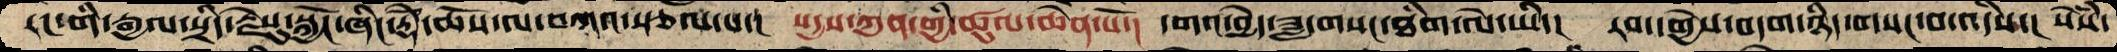རང་གི་རྒྱལ་སྲིད་རྗེསུ་སྐྱོང་ཞིང་རྡོེ་ཆོས་ལ་བཀའ་སྩལ་པ་།  སདྱས་ཀུན་གྱི་ཚུལ་ཆེན་པོ་།  དགའ་བྱེད་ཟླ་གསང་ཐིག་ལེ་ཡི་།  རབ་དགྱེས་བདག་ཉིད་གསང་བ་འདིས་།  སེཾས་
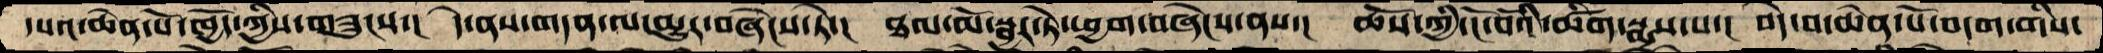དཔའ་ཆེན་པོ་ཁྱོད་ཀྱིས་གཟུངས་།  དེ་ནས་གདན་ལ་མྱུར་བཞེངས་ཏེ་།  ཐལ་མོ་སྦྱར་ཏེ་ཕྱག་བཞེངས་ནས་།  ཆོས་ཀྱི་ངོ་བོའི་ཚིག་སྨྲས་པ་།  བདེ་བ་ཆེན་པོ་བདག་གིས་
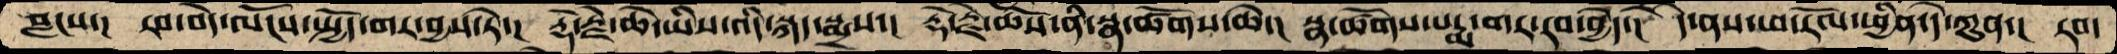བླངས་།   རབ་བདེ་ལོངས་སྤྱོད་གར་བྱས་ཏེ་།  རྡོ་རྗེ་ཆེ་ཡིས་འདི་སྐད་སྨྲས་།  རྡོ་རྗེ་ཆོས་ནི་སྣ་ཚོགས་ཆེ་།  སྣ་ཚོགས་པདྨ་གར་རབ་བྱེད་།  དེ་ནས་ཕ་རོལ་ཕྱིན་དེ་ཀུན་།  རབ་
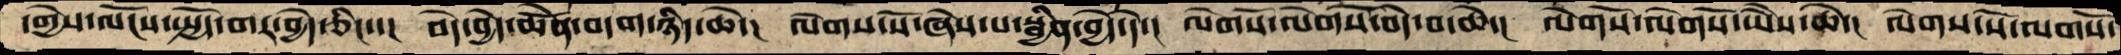དགྱེས་ལོངས་སྤྱོད་གར་བྱེད་ཅིང་་།  བདེ་བྱེད་ཆེནོ་བདག་ཉིད་ཆེ་།  ལེགས་སོ་ཞེས་པ་སྦྱིན་བྱེད་དེ་།  ལེགསོ་ལེགསོ་བདེ་བ་ཆེ་།  ལེགསོ་ལེགསོ་ཡཻས་ཆེ་།  ལེགས་སོ་ལགསོ་
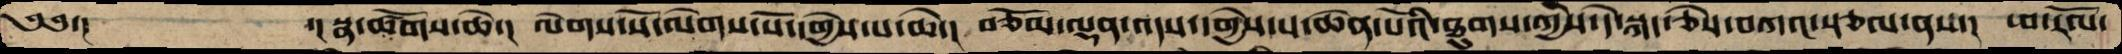༄༅་།         ་།སྣ་ཚོགས་ཆེ་།  ལེགས་སོ་ལེགས་སོ་དགྱེས་པ་ཆེ་།  བཅོམ་ལྡན་འདས་དགྱེས་པ་ཆེན་པོའི་ཐུགས་ཀྱི་དེ་སྐད་ཅེས་བཀའ་སྩལ་ནས་།  ཕ་རོལ་
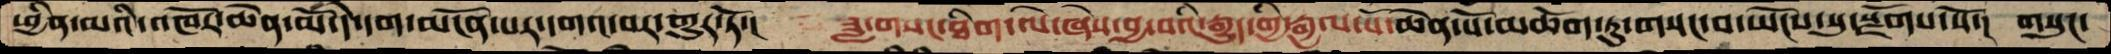ཕྱིན་མའི་འཁོར་ཆེན་མོ་དེ་དག་མངོན་པར་དགའ་བར་གྱུར་ཏོ་།   ཟླ་གསང་ཐིག་ལེ་ཞེས་བྱ་བའི་རྒྱུད་གྱི་རྒྱལ་པོ་ཆེན་པོ་མཆོག་ཏུ་གསང་བ་ཡོངས་སུ་སྫོགས་སོ་།  གསུང་
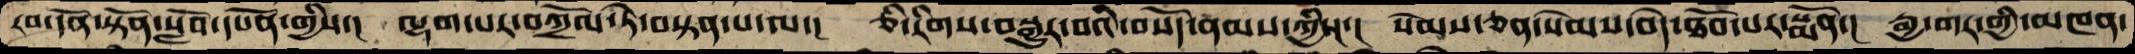རབ་དོན་སྟོན་སློབ་དཔོན་གྱིས་།  ལྷག་པར་བཀྲོལ་ཏེ་བསྟན་པ་ལ་།  ཅི་རིགས་བསྒྱུར་བའི་བསོད་ནམས་ཀྱིས་།  སེམས་ཅན་སེམས་བདེ་ཐོབ་པར་སྨོན་།  རྒྱ་གར་གྱི་མཁན་
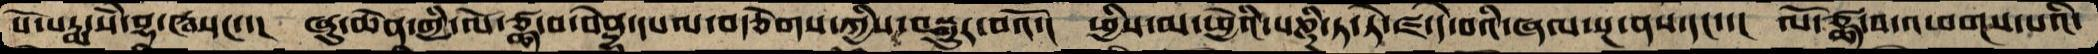པོ་པདྨ་སཾ་བྷ་ཝ་དང་་།  ཞུ་ཆེན་གྱི་ལོ་ཙྪ་བ་བེནྡྷ་དཔལ་བརྩེགས་ཀྱིས་བསྒྱུར་བའོ་།  ཕྱིས་མ་ཕྱེའི་པཎྜི་ཏ་ཏེ་ཛ་དེ་བའི་ཞལ་སྔ་ནས་དང་་།  ལོ་ཙྪ་བ་འཕགས་པའི་
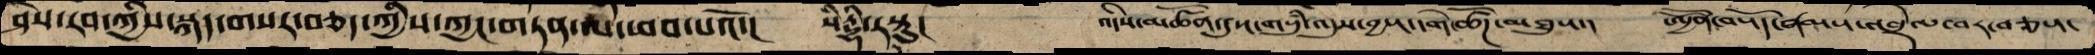ཤེས་རབ་ཀྱིས་སྐད་གསར་བཅད་ཀྱིས་ཀྱང་གཏན་ལ་ཕབ་པའོ་།  སིདྡྷི་རསྟུ།  འདིས་མཚོན་དུས་གསུཾ་འདུས་བྱས་དགེ་ཚོཌ་མཐུས་།  ཨྱོན་བསོད་ནམས་འབྲེལ་བར་བཅས་
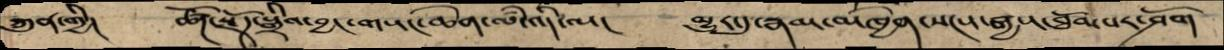ཀུན་གྱི།  ཚོཌ་སྫོཌ་སྒྲིབ་བྱང་གསང་ཆེན་ལཾ་འདི་ལ།  མྱུར་དུ་རྣམ་མཁྱེན་སངས་རྒྱས་ཐོབ་པར་ཤོག
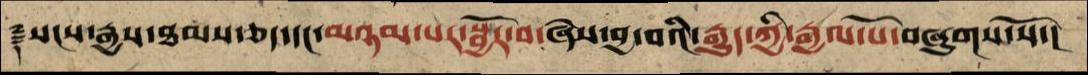࿑ སངས་རྒྱས་ཐམས་ཅད་དང་མཉམ་པར་སྦྱོར་བ་ཞེས་བྱ་བའི་རྒྱུད་ཀྱི་རྒྱལ་པོ་བཞུགས་སོ་།
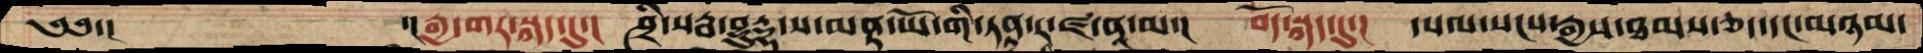༄༅་།           ་།རྒྱ་གར་སྐད་དུ་།  ཤྲི་སརྦ་བྷུདྡྷ་ས་མནྟ་ཡོ་གི་ཏནྟ་ར་ཛ་ནཱ་མ་།  བོད་སྐད་དུ་།  དཔལ་སངས་རྒྱས་ཐམས་ཅད་དང་མཉམ་
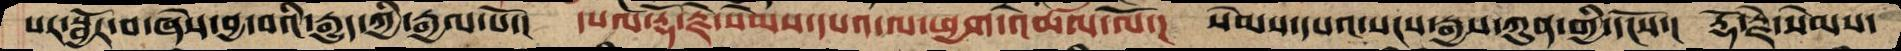པར་སྦྱོར་བ་ཞེས་བྱ་བའི་རྒྱུད་ཀྱི་རྒྱལ་པོ་།  དཔལ་རྡོ་རྗེ་སེམས་དཔའ་ལ་ཕྱག་འཚལ་ལོ་།  སེམས་དཔའ་སངས་རྒྱས་ཀུན་གྱི་དངོས་།  རྡོ་རྗེ་སེམས་
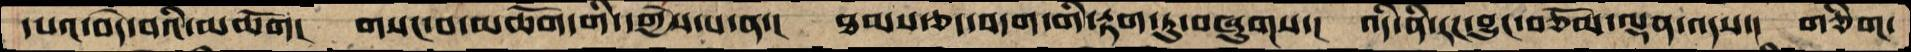དཔའ་བདེ་བའི་མཆོག།  གསང་བ་མཆོག་གི་དགྱེས་པ་ནས་།  ཐམས་ཅད་བདག་གི་རྟག་ཏུ་བཞུགས་།  འདི་ནི་རང་བྱུང་བཅོམ་ལྡན་འདས་།  གཅིག་
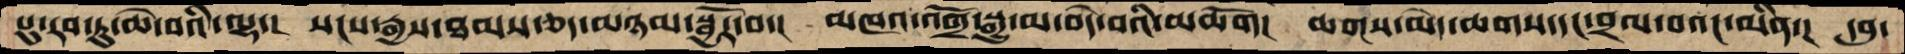པུ་རབ་ཏུ་ཆེ་བའི་ལྷ་།  སངས་རྒྱས་ཐམས་ཅད་མཉམ་སྦྱོར་བ་།  མཁའ་འགྲོ་སྒྱུ་མ་བདེ་བའི་མཆོག།  ཆགས་མེད་ཆགས་དང་བྲལ་བའང་མིན་།  དབུ་
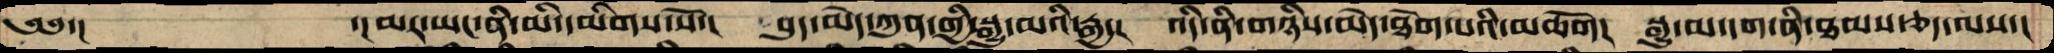༄༅་།      ་།མར་ཡང་ནི་མི་དམིགས་སོ་།  བུད་མེད་ཀུན་གྱི་སྒྱུ་མའི་རྒྱ་།  འདི་ནི་གཉིས་མེད་ཐེག་པའི་མཆོག།  སྒྱུ་མ་དག་ནི་ཐམས་ཅད་ལས་།
